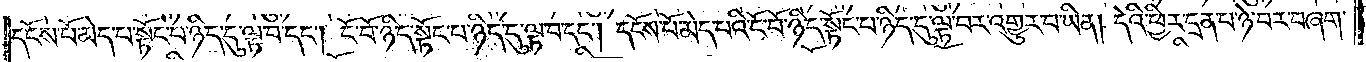དངོས་པོ་མེད་པ་སྟོང་པ་ཉིད་དུ་ལྟ་བ་དང༌། ངོ་བོ་ཉིད་སྟོང་པ་ཉིད་དུ་ལྟ་བ་དང༌། དངོས་པོ་མེད་པའི་ངོ་བོ་ཉིད་སྟོང་པ་ཉིད་དུ་ལྟ་བར་འགྱུར་བ་ཡིན། དེའི་ཕྱིར་དྲན་པ་ཉེ་བར་བཞག་
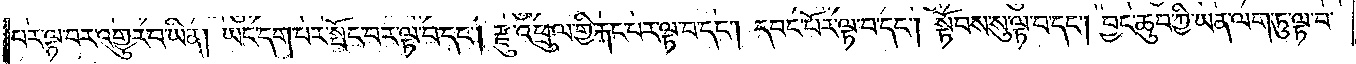པར་ལྟ་བར་འགྱུར་བ་ཡིན། ཡང་དག་པར་སྤོང་བར་ལྟ་བ་དང༌། རྫུ་འཕྲུལ་གྱི་རྐང་པར་ལྟ་བ་དང༌། དབང་པོར་ལྟ་བ་དང༌། སྟོབས་སུ་ལྟ་བ་དང༌། བྱང་ཆུབ་ཀྱི་ཡན་ལག་ཏུ་ལྟ་བ་
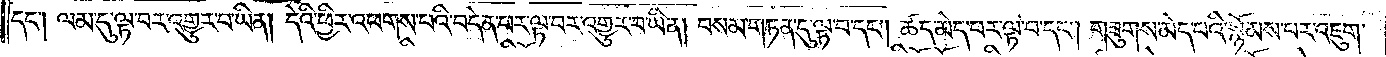དང༌། ལམ་དུ་ལྟ་བར་འགྱུར་བ་ཡིན། དེའི་ཕྱིར་འཕགས་པའི་བདེན་པར་ལྟ་བར་འགྱུར་བ་ཡིན། བསམ་གཏན་དུ་ལྟ་བ་དང༌། ཚད་མེད་པར་ལྟ་བ་དང༌། གཟུགས་མེད་པའི་སྙོམས་པར་འཇུག་
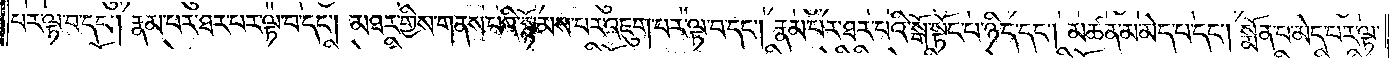པར་ལྟ་བ་དང༌། རྣམ་པར་ཐར་བར་ལྟ་བ་དང༌། མཐར་གྱིས་གནས་པའི་སྙོམས་པར་འཇུག་པར་ལྟ་བ་དང༌། རྣམ་པར་ཐར་པའི་སྒོ་སྟོང་པ་ཉིད་དང༌། མཚན་མ་མེད་པ་དང༌། སྨོན་པ་མེད་པར་ལྟ་
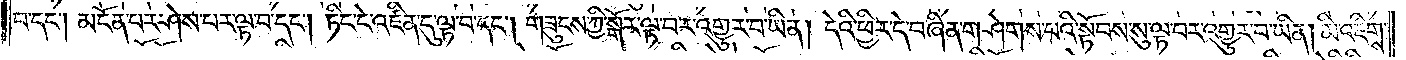བ་དང༌། མངོན་པར་ཤེས་པར་ལྟ་བ་དང༌། ཏིང་ངེ་འཛིན་དུ་ལྟ་བ་དང༌། གཟུངས་ཀྱི་སྒོར་ལྟ་བར་འགྱུར་བ་ཡིན། དེའི་ཕྱིར་དེ་བཞིན་གཤེགས་པའི་སྟོབས་སུ་ལྟ་བར་འགྱུར་བ་ཡིན། མི་འཇིགས་
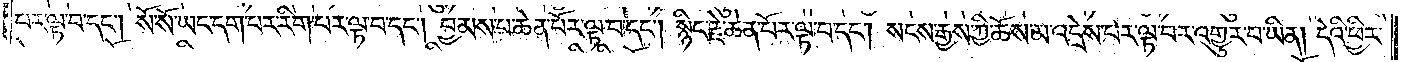པར་ལྟ་བ་དང༌། སོ་སོ་ཡང་དག་པར་རིག་པར་ལྟ་བ་དང༌། བྱམས་པ་ཆེན་པོར་ལྟ་བ་དང༌། སྙིང་རྗེ་ཆེན་པོར་ལྟ་བ་དང༌། སངས་རྒྱས་ཀྱི་ཆོས་མ་འདྲེས་པར་ལྟ་བར་འགྱུར་བ་ཡིན། དེའི་ཕྱིར་
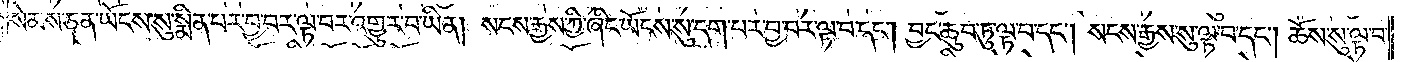སེམས་ཅན་ཡོངས་སུ་སྨིན་པར་བྱ་བར་ལྟ་བར་འགྱུར་བ་ཡིན། སངས་རྒྱས་ཀྱི་ཞིང་ཡོངས་སུ་དག་པར་བྱ་བར་ལྟ་བ་དང༌། བྱང་ཆུབ་ཏུ་ལྟ་བ་དང༌། སངས་རྒྱས་སུ་ལྟ་བ་དང༌། ཆོས་སུ་ལྟ་བ་
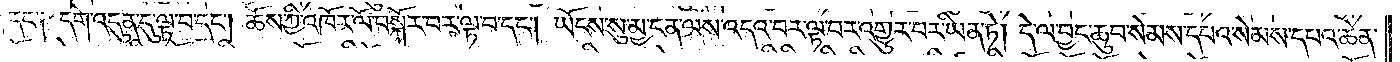དང༌། དགེ་འདུན་དུ་ལྟ་བ་དང༌། ཆོས་ཀྱི་འཁོར་ལོ་བསྐོར་བར་ལྟ་བ་དང༌། ཡོངས་སུ་མྱ་ངན་ལས་འདའ་བར་ལྟ་བར་འགྱུར་བ་ཡིན་ཏེ། དེ་ལ་བྱང་ཆུབ་སེམས་དཔའ་སེམས་དཔའ་ཆེན་
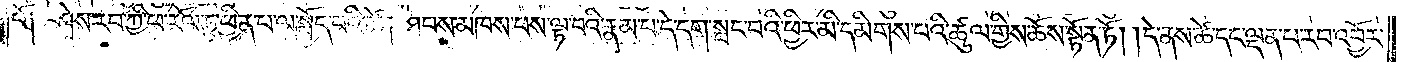པོ། ཤེས་རབ་ཀྱི་ཕ་རོལ་ཏུ་ཕྱིན་པ་ལ་སྤྱོད་པའི་ཚེ། ཐབས་མཁས་པས་ལྟ་བའི་རྣམ་པ་དེ་དག་སྤང་བའི་ཕྱིར་མི་དམིགས་པའི་ཚུལ་གྱིས་ཆོས་སྟོན་ཏོ། །དེ་ནས་ཚེ་དང་ལྡན་པ་རབ་འབྱོར་
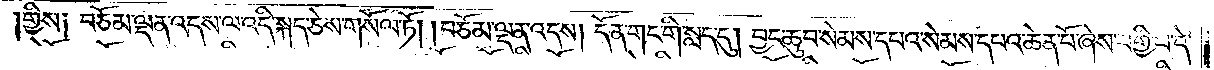གྱིས། བཅོམ་ལྡན་འདས་ལ་འདི་སྐད་ཅེས་གསོལ་ཏོ། །བཅོམ་ལྡན་འདས། དོན་གང་གི་སླད་དུ། བྱང་ཆུབ་སེམས་དཔའ་སེམས་དཔའ་ཆེན་པོ་ཞེས་བགྱི་བ་དེ་
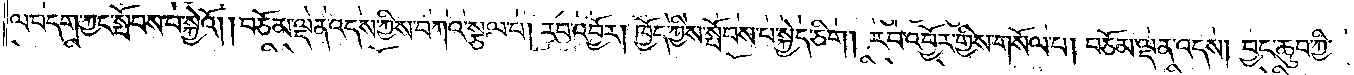ལ་བདག་ཀྱང་སྤོབས་པ་སྐྱེའོ། །བཅོམ་ལྡན་འདས་ཀྱིས་བཀའ་སྩལ་པ། རབ་འབྱོར། ཁྱོད་ཀྱིས་སྤོབས་པ་སྐྱེད་ཅིག །རབ་འབྱོར་གྱིས་གསོལ་པ། བཅོམ་ལྡན་འདས། བྱང་ཆུབ་ཀྱི་
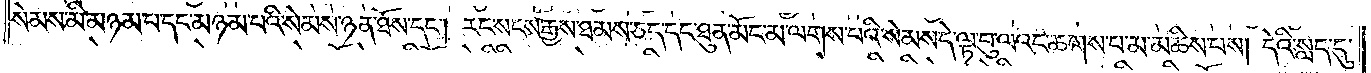སེམས་མི་མཉམ་པ་དང་མཉམ་པའི་སེམས་ཉན་ཐོས་དང༌། རང་སངས་རྒྱས་ཐམས་ཅད་དང་ཐུན་མོང་མ་ལགས་པའི་སེམས་དེ་ལྟ་བུ་ལའང་ཆགས་པ་མ་མཆིས་པས། དེའི་སླད་དུ་
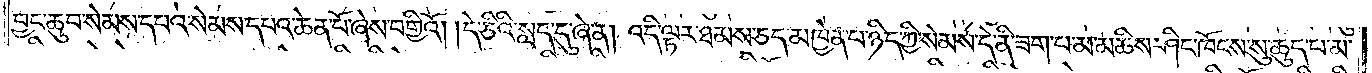བྱང་ཆུབ་སེམས་དཔའ་སེམས་དཔའ་ཆེན་པོ་ཞེས་བགྱིའོ། །དེ་ཅིའི་སླད་དུ་ཞེ་ན། འདི་ལྟར་ཐམས་ཅད་མཁྱེན་པ་ཉིད་ཀྱི་སེམས་དེ་ནི་ཟག་པ་མ་མཆིས་ཤིང་ཁོངས་སུ་ཆུད་པ་མ་
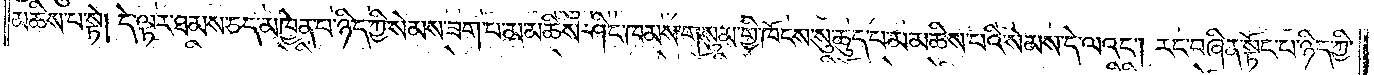མཆིས་པ་སྟེ། དེ་ལྟར་ཐམས་ཅད་མཁྱེན་པ་ཉིད་ཀྱི་སེམས་ཟག་པ་མ་མཆིས་ཤིང་ཁམས་གསུམ་གྱི་ཁོངས་སུ་ཆུད་པ་མ་མཆིས་པའི་སེམས་དེ་ལའང༌། རང་བཞིན་སྟོང་པ་ཉིད་ཀྱི་
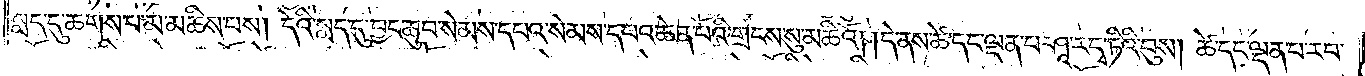སླད་དུ་ཆགས་པ་མ་མཆིས་པས། དེའི་སླད་དུ་བྱང་ཆུབ་སེམས་དཔའ་སེམས་དཔའ་ཆེན་པོའི་གྲངས་སུ་མཆིའོ། །དེ་ནས་ཚེ་དང་ལྡན་པ་ཤཱ་རདྭ་ཏིའི་བུས། ཚེ་དང་ལྡན་པ་རབ་
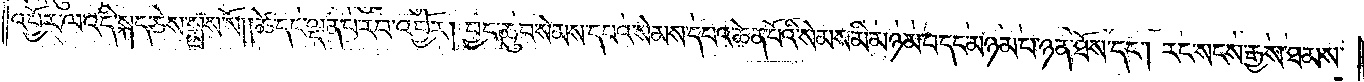འབྱོར་ལ་འདི་སྐད་ཅེས་སྨྲས་སོ། །ཚེ་དང་ལྡན་པ་རབ་འབྱོར། བྱང་ཆུབ་སེམས་དཔའ་སེམས་དཔའ་ཆེན་པོའི་སེམས་མི་མཉམ་པ་དང་མཉམ་པ་ཉན་ཐོས་དང༌། རང་སངས་རྒྱས་ཐམས་
